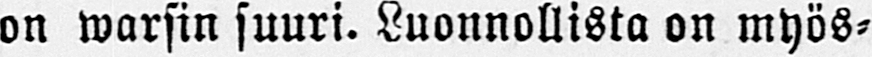on warsin suuri. Luonnollista on myös-
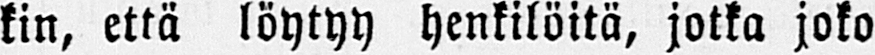kin, että löytyy henkilöitä, jotka joko
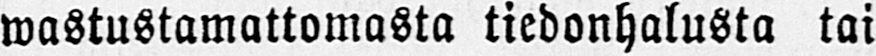wastustamattomasta tiedonhalusta tai
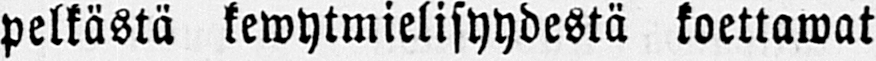pelkästä kewytmielisyydestä koettawat
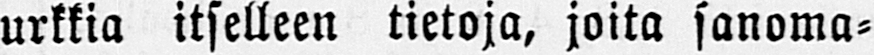urkkia itselleen tietoja, joita sanoma-
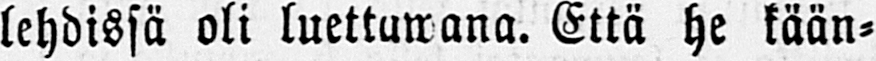lehdissä oli luettawana. Että he kään-
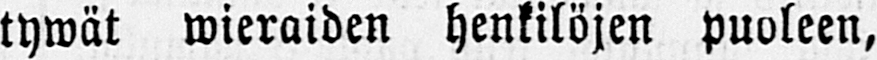tywät wieraiden henkilöjen puoleen,
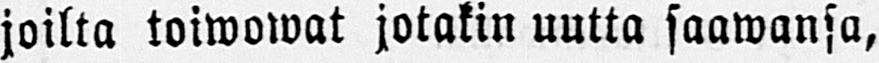joilta toiwowat jotakin uutta saawansa,
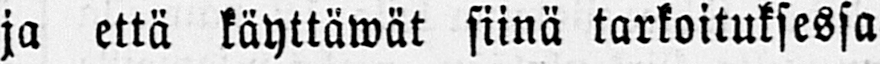ja että käyttäwät siinä tarkoituksessa
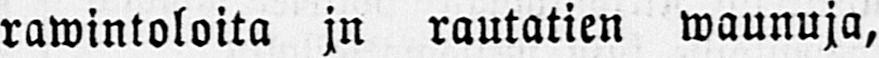rawintoloita jn rautatien waunuja,
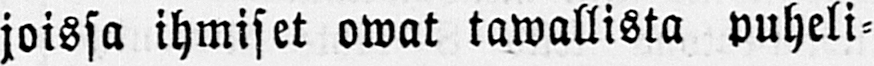joissa ihmiset owat tawallista puheli-
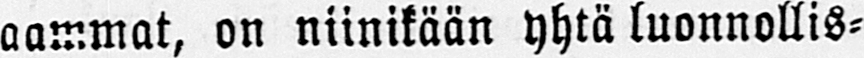aammat, on niinikään yhtä luonnollis-
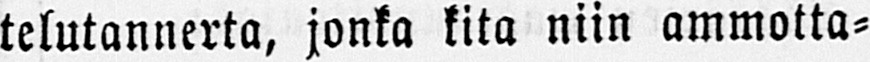telutannerta, jonka kita niin ammotta-
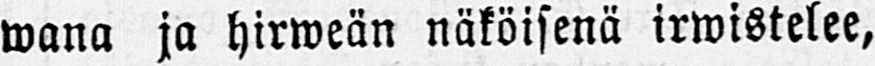wana ja hirweän näköisenä irwistelee,
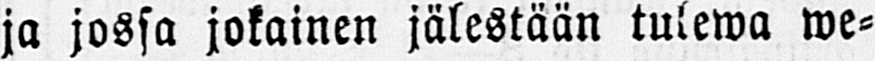ja jossa jokainen jälestään tulewa we-
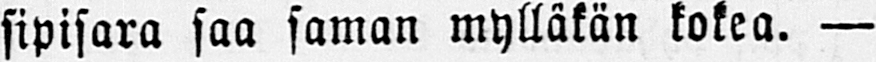sipisara saa saman mylläkän kokea. —
